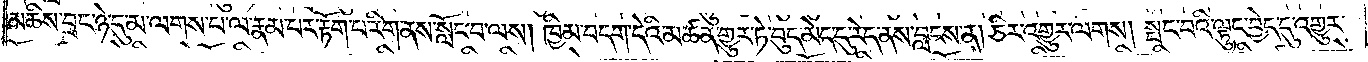མཆིས་བྲང་ཉེ་དུ་མ་ལགས་པ་ལ་རྣམ་པར་རྟོག་པ་རིག་ནས་སློང་བ་ལས། ཁྱིམ་བདག་དེའི་མཚན་གྱུར་ཏེ་བུད་མེད་དུ་རེད་ནས་བླངས་ན། ཅིར་འགྱུར་ལགས། སྤང་བའི་ལྟུང་བྱེད་དུ་འགྱུར་
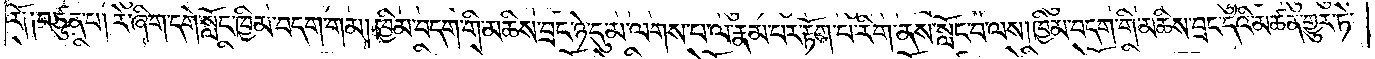རོ༑ ༑བཙུན་པ། རེ་ཞིག་དགེ་སློང་ཁྱིམ་བདག་གམ། ཁྱིམ་བདག་གི་མཆིས་བྲང་ཉེ་དུ་མ་ལགས་པ་ལ་རྣམ་པར་རྟོག་པ་རིག་ནས་སློང་བ་ལས། ཁྱིམ་བདག་གི་མཆིས་བྲང་དེའི་མཚན་གྱུར་ཏེ་
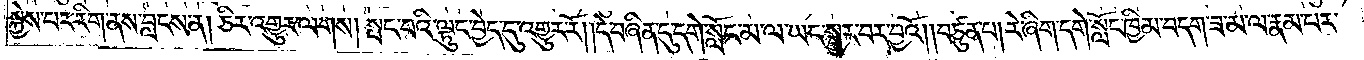སྐྱེས་པར་རིག་ནས་བླངས་ན། ཅིར་འགྱུར་ལགས། སྤང་བའི་ལྟུང་བྱེད་དུ་འགྱུར་རོ། །དེ་བཞིན་དུ་དགེ་སློང་མ་ལ་ཡང་སྦྱར་བར་བྱའོ། །བཙུན་པ། རེ་ཞིག་དགེ་སློང་ཁྱིམ་བདག་ཟ་མ་ལ་རྣམ་པར་
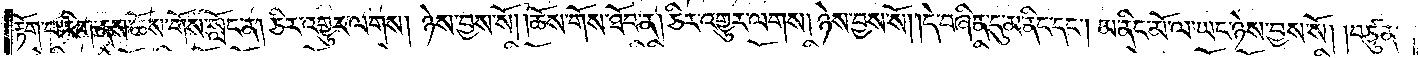རྟོག་པ་རིག་ནས་ཆོས་གོས་སློང་ན། ཅིར་འགྱུར་ལགས། ཉེས་བྱས་སོ། །ཆོས་གོས་ཐོབ་ན། ཅིར་འགྱུར་ལགས། ཉེས་བྱས་སོ། །དེ་བཞིན་དུ་མ་ནིང་དང༌། མ་ནིང་མོ་ལ་ཡང་ཉེས་བྱས་སོ། །བཙུན་
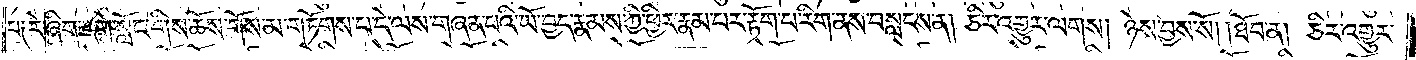པ༑ རེ་ཞིག་དགེ་སློང་གིས་ཆོས་གོས་མ་གཏོགས་པ་དེ་ལས་གཞན་པའི་ཡོ་བྱད་རྣམས་ཀྱི་ཕྱིར་རྣམ་པར་རྟོག་པ་རིག་ནས་བསླངས་ན། ཅིར་འགྱུར་ལགས། ཉེས་བྱས་སོ། །ཐོབ་ན། ཅིར་འགྱུར་
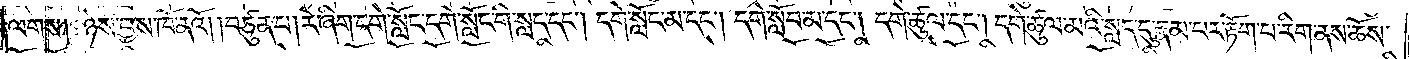ལགས། ཉེས་བྱས་ཁོ་ནའོ། །བཙུན་པ། རེ་ཞིག་དགེ་སློང་དགེ་སློང་གི་སླད་དང༌། དགེ་སློང་མ་དང༌། དགེ་སློབ་མ་དང༌། དགེ་ཚུལ་དང༌། དགེ་ཚུལ་མའི་སླད་དུ་རྣམ་པར་རྟོག་པ་རིག་ནས་ཆོས་
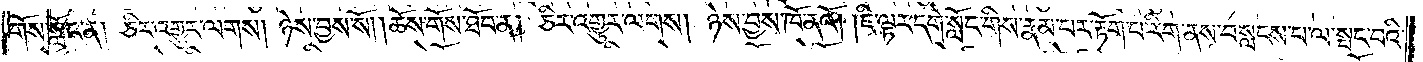གོས་སློང་ན། ཅིར་འགྱུར་ལགས། ཉེས་བྱས་སོ། །ཆོས་གོས་ཐོབ་ན། ཅིར་འགྱུར་ལགས། ཉེས་བྱས་ཁོ་ནའོ། །ཇི་ལྟར་དགེ་སློང་གིས་རྣམ་པར་རྟོག་པ་རིག་ནས་བསླངས་པ་ལ་སྤང་བའི་
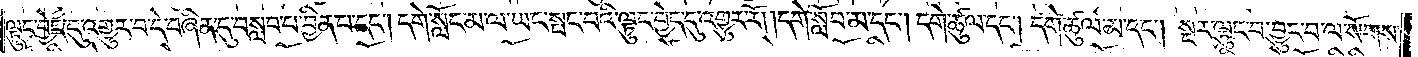ལྟུང་བྱེད་དུ་འགྱུར་བ་དེ་བཞིན་དུ་བསླབ་པ་བྱིན་པ་དང༌། དགེ་སློང་མ་ལ་ཡང་སྤང་བའི་ལྟུང་བྱེད་དུ་འགྱུར་རོ། །དགེ་སློབ་མ་དང༌། དགེ་ཚུལ་དང༌། དགེ་ཚུལ་མ་དང༌། སྔར་ལྟུང་བ་བྱུང་བ་ལ་སོགས་
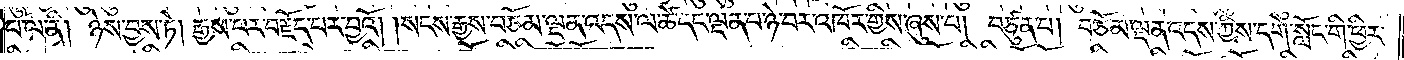པ་ལ་ནི། ཉེས་བྱས་ཏེ། རྒྱས་པར་བརྗོད་པར་བྱའོ། །སངས་རྒྱས་བཅོམ་ལྡན་འདས་ལ་ཚེ་དང་ལྡན་པ་ཉེ་བར་འཁོར་གྱིས་ཞུས་པ། བཙུན་པ། བཅོམ་ལྡན་འདས་ཀྱིས་དགེ་སློང་གི་ཕྱིར་
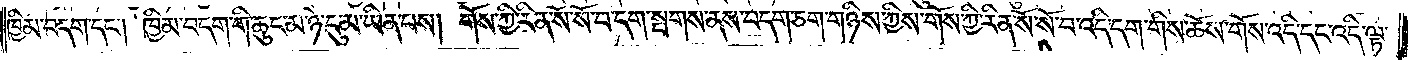ཁྱིམ་བདག་དང༌། ཁྱིམ་བདག་གི་ཆུང་མ་ཉེ་དུ་མ་ཡིན་པས། གོས་ཀྱི་རིན་སོ་སོ་བ་དག་སྤགས་ནས་བདག་ཅག་གཉིས་ཀྱིས་གོས་ཀྱི་རིན་སོ་སོ་བ་འདི་དག་གིས་ཆོས་གོས་འདི་དང་འདི་ལྟ་
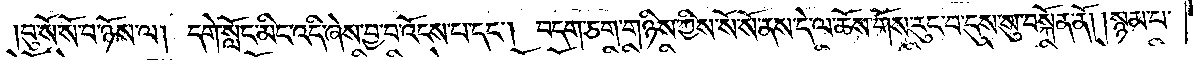།བུ་སོ་སོ་བ་ཉོས་ལ། དགེ་སློང་མིང་འདི་ཞེས་བྱ་བ་འོངས་པ་དང༌། བདག་ཅག་གཉིས་ཀྱིས་སོ་སོ་ནས་དེ་ལ་ཆོས་གོས་རུང་བ་དུས་སུ་བསྐོན་ནོ། །སྙམ་པ་
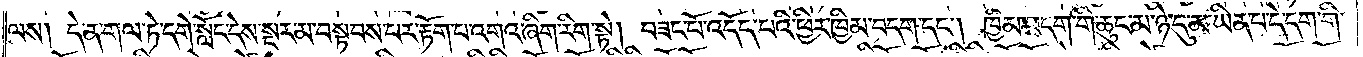ལས། དེ་ན་གལ་ཏེ་དགེ་སློང་དེས་སྔར་མ་བསྟབས་པར་རྟོག་པ་འགའ་ཞིག་རིག་སྟེ། བཟང་པོ་འདོད་པའི་ཕྱིར་ཁྱིམ་བདག་དང༌། ཁྱིམ་བདག་གི་ཆུང་མ་ཉེ་དུ་མ་ཡིན་པ་དེ་དག་གི་
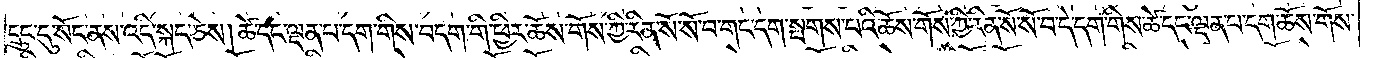དྲུང་དུ་སོང་ནས་འདི་སྐད་ཅེས། ཚེ་དང་ལྡན་པ་དག་གིས་བདག་གི་ཕྱིར་ཆོས་གོས་ཀྱི་རིན་སོ་སོ་བ་གང་དག་སྤགས་པའི་ཆོས་གོས་ཀྱི་རིན་སོ་སོ་བ་དེ་དག་གིས་ཚེ་དང་ལྡན་པ་དག་ཆོས་གོས་
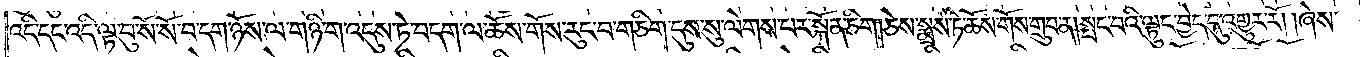འདི་དང་འདི་ལྟ་བུ་སོ་སོ་བ་དག་ཉོས་ལ་གཉི་ག་འདུས་ཏེ་བདག་ལ་ཆོས་གོས་རུང་བ་གཅིག་དུས་སུ་ལེགས་པར་སྐོན་ཅིག །ཅེས་སྨྲས་ཏེ་ཆོས་གོས་གྲུབ་ན། སྤང་བའི་ལྟུང་བྱེད་དུ་འགྱུར་རོ། །ཞེས་
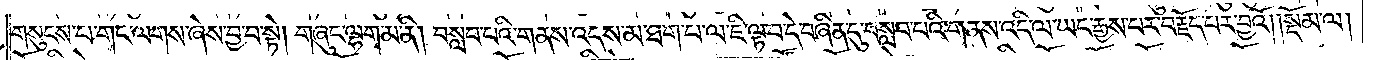གསུངས་པ་གང་ལགས་ཞེས་བྱ་བ་སྟེ། གཞུང་ལྷག་མ་ནི། བསླབ་པའི་གནས་འདས་མ་ཐག་པ་ལ་ཇི་ལྟ་བ་དེ་བཞིན་དུ་བསླབ་པའི་གནས་འདི་ལ་ཡང་རྒྱས་པར་བརྗོད་པར་བྱའོ།    །སྡོམ་ལ།
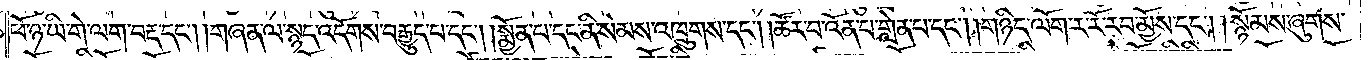ཕོ་ཉ་ཡི་གེ་ལག་བརྡ་དང༌། །གཞན་ལ་སྙད་འདོགས་བརྒྱུད་པ་དང༌། །སྨྱོན་པ་དང་ནི་སེམས་འཁྲུགས་དང༌། །ཚོར་བ་འོན་པ་གླེན་པ་དང༌། །གཉིད་ལོག་ར་རོ་རབ་མྱོས་དང༌། །སྙོམས་ཞུགས་
